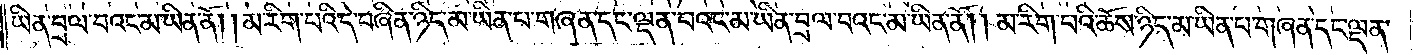ཡིན་བྲལ་བའང་མ་ཡིན་ནོ། །མ་རིག་པའི་དེ་བཞིན་ཉིད་མ་ཡིན་པ་གཞན་དང་ལྡན་པའང་མ་ཡིན་བྲལ་བའང་མ་ཡིན་ནོ། །མ་རིག་པའི་ཆོས་ཉིད་མ་ཡིན་པ་གཞན་དང་ལྡན་
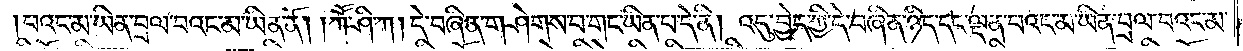པའང་མ་ཡིན་བྲལ་བའང་མ་ཡིན་ནོ། །ཀཽ་ཤི་ཀ །དེ་བཞིན་གཤེགས་པ་གང་ཡིན་པ་དེ་ནི། འདུ་བྱེད་ཀྱི་དེ་བཞིན་ཉིད་དང་ལྡན་པའང་མ་ཡིན་བྲལ་བའང་མ་
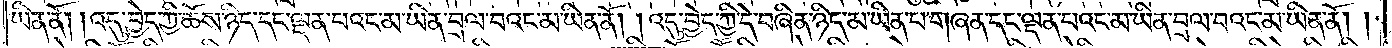ཡིན་ནོ། །འདུ་བྱེད་ཀྱི་ཆོས་ཉིད་དང་ལྡན་པའང་མ་ཡིན་བྲལ་བའང་མ་ཡིན་ནོ། །འདུ་བྱེད་ཀྱི་དེ་བཞིན་ཉིད་མ་ཡིན་པ་གཞན་དང་ལྡན་པའང་མ་ཡིན་བྲལ་བའང་མ་ཡིན་ནོ། །
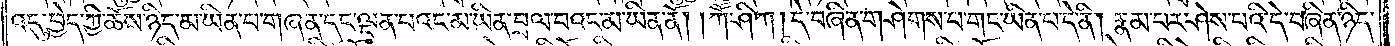འདུ་བྱེད་ཀྱི་ཆོས་ཉིད་མ་ཡིན་པ་གཞན་དང་ལྡན་པའང་མ་ཡིན་བྲལ་བའང་མ་ཡིན་ནོ། །ཀཽ་ཤི་ཀ །དེ་བཞིན་གཤེགས་པ་གང་ཡིན་པ་དེ་ནི། རྣམ་པར་ཤེས་པའི་དེ་བཞིན་ཉིད་
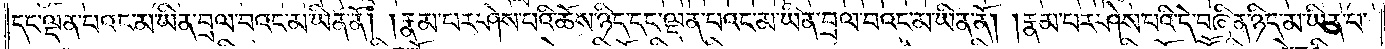དང་ལྡན་པའང་མ་ཡིན་བྲལ་བའང་མ་ཡིན་ནོ། །རྣམ་པར་ཤེས་པའི་ཆོས་ཉིད་དང་ལྡན་པའང་མ་ཡིན་བྲལ་བའང་མ་ཡིན་ནོ༎ རྣམ་པར་ཤེས་པའི་དེ་བཞིན་ཉིད་མ་ཡིན་པ་
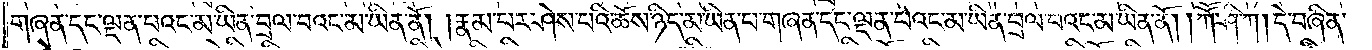གཞན་དང་ལྡན་པའང་མ་ཡིན་བྲལ་བའང་མ་ཡིན་ནོ། །རྣམ་པར་ཤེས་པའི་ཆོས་ཉིད་མ་ཡིན་པ་གཞན་དང་ལྡན་པའང་མ་ཡིན་བྲལ་བའང་མ་ཡིན་ནོ། །ཀཽ་ཤི་ཀ །དེ་བཞིན་
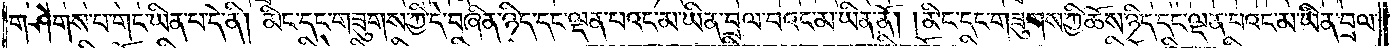གཤེགས་པ་གང་ཡིན་པ་དེ་ནི། མིང་དང་གཟུགས་ཀྱི་དེ་བཞིན་ཉིད་དང་ལྡན་པའང་མ་ཡིན་བྲལ་བའང་མ་ཡིན་ནོ། །མིང་དང་གཟུགས་ཀྱི་ཆོས་ཉིད་དང་ལྡན་པའང་མ་ཡིན་བྲལ་
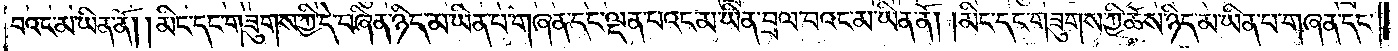བའང་མ་ཡིན་ནོ། །མིང་དང་གཟུགས་ཀྱི་དེ་བཞིན་ཉིད་མ་ཡིན་པ་གཞན་དང་ལྡན་པའང་མ་ཡིན་བྲལ་བའང་མ་ཡིན་ནོ། །མིང་དང་གཟུགས་ཀྱི་ཆོས་ཉིད་མ་ཡིན་པ་གཞན་དང་
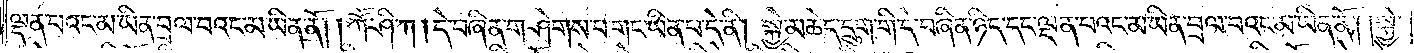ལྡན་པའང་མ་ཡིན་བྲལ་བའང་མ་ཡིན་ནོ། །ཀཽ་ཤི་ཀ །དེ་བཞིན་གཤེགས་པ་གང་ཡིན་པ་དེ་ནི། སྐྱེ་མཆེད་དྲུག་གི་དེ་བཞིན་ཉིད་དང་ལྡན་པའང་མ་ཡིན་བྲལ་བའང་མ་ཡིན་ནོ། །སྐྱེ་
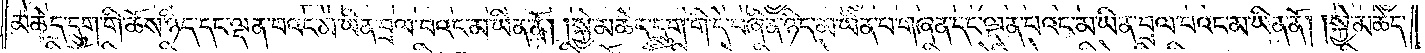མཆེད་དྲུག་གི་ཆོས་ཉིད་དང་ལྡན་པའང་མ་ཡིན་བྲལ་བའང་མ་ཡིན་ནོ། །སྐྱེ་མཆེད་དྲུག་གི་དེ་བཞིན་ཉིད་མ་ཡིན་པ་གཞན་དང་ལྡན་པའང་མ་ཡིན་བྲལ་བའང་མ་ཡིན་ནོ། །སྐྱེ་མཆེད་
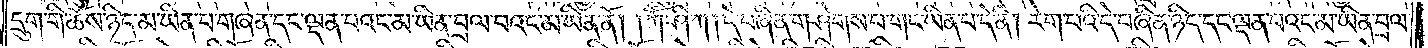དྲུག་གི་ཆོས་ཉིད་མ་ཡིན་པ་གཞན་དང་ལྡན་པའང་མ་ཡིན་བྲལ་བའང་མ་ཡིན་ནོ། །ཀཽ་ཤི་ཀ །དེ་བཞིན་གཤེགས་པ་གང་ཡིན་པ་དེ་ནི། རེག་པའི་དེ་བཞིན་ཉིད་དང་ལྡན་པའང་མ་ཡིན་བྲལ་
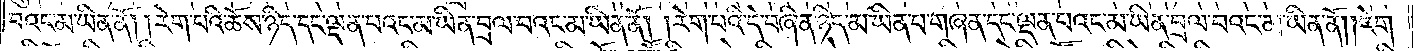བའང་མ་ཡིན་ནོ༎ རེག་པའི་ཆོས་ཉིད་དང་ལྡན་པའང་མ་ཡིན་བྲལ་བའང་མ་ཡིན་ནོ། །རེག་པའི་དེ་བཞིན་ཉིད་མ་ཡིན་པ་གཞན་དང་ལྡན་པའང་མ་ཡིན་བྲལ་བའང་མ་ཡིན་ནོ། །རེག་
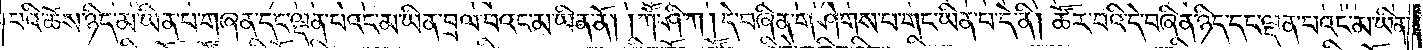པའི་ཆོས་ཉིད་མ་ཡིན་པ་གཞན་དང་ལྡན་པའང་མ་ཡིན་བྲལ་བའང་མ་ཡིན་ནོ། །ཀཽ་ཤི་ཀ །དེ་བཞིན་གཤེགས་པ་གང་ཡིན་པ་དེ་ནི། ཚོར་བའི་དེ་བཞིན་ཉིད་དང་ལྡན་པའང་མ་ཡིན་
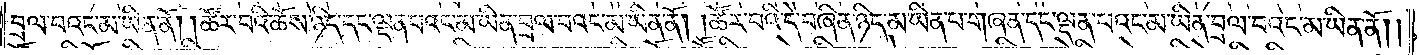བྲལ་བའང་མ་ཡིན་ནོ། །ཚོར་བའི་ཆོས་ཉིད་དང་ལྡན་པའང་མ་ཡིན་བྲལ་བའང་མ་ཡིན་ནོ། །ཚོར་བའི་དེ་བཞིན་ཉིད་མ་ཡིན་པ་གཞན་དང་ལྡན་པའང་མ་ཡིན་བྲལ་བའང་མ་ཡིན་ནོ། །
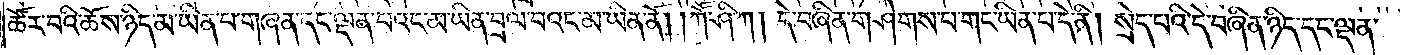ཚོར་བའི་ཆོས་ཉིད་མ་ཡིན་པ་གཞན་དང་ལྡན་པའང་མ་ཡིན་བྲལ་བའང་མ་ཡིན་ནོ། །ཀཽ་ཤི་ཀ །དེ་བཞིན་གཤེགས་པ་གང་ཡིན་པ་དེ་ནི། སྲེད་པའི་དེ་བཞིན་ཉིད་དང་ལྡན་
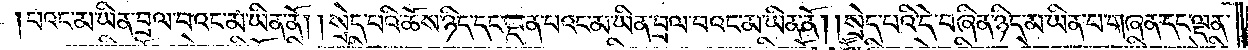པའང་མ་ཡིན་བྲལ་བའང་མ་ཡིན་ནོ། །སྲེད་པའི་ཆོས་ཉིད་དང་ལྡན་པའང་མ་ཡིན་བྲལ་བའང་མ་ཡིན་ནོ། །སྲེད་པའི་དེ་བཞིན་ཉིད་མ་ཡིན་པ་གཞན་དང་ལྡན་
